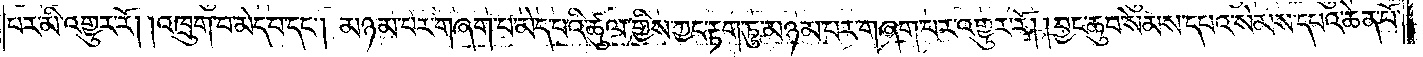པར་མི་འགྱུར་རོ། །འཁྲུག་བ་མེད་པ་དང༌། མཉམ་པར་བཞག་པ་མེད་པའི་ཚུལ་གྱིས་ཀྱང་རྟག་ཏུ་མཉམ་པར་གཞག་པར་འགྱུར་རོ། །བྱང་ཆུབ་སེམས་དཔའ་སེམས་དཔའ་ཆེན་པོ་
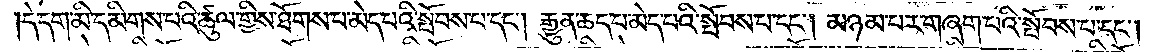དེ་དག་མི་དམིགས་པའི་ཚུལ་གྱིས་ཐོགས་པ་མེད་པའི་སྤོབས་པ་དང༌། རྒྱུན་ཆད་པ་མེད་པའི་སྤོབས་པ་དང༌། མཉམ་པར་གཞག་པའི་སྤོབས་པ་དང༌།
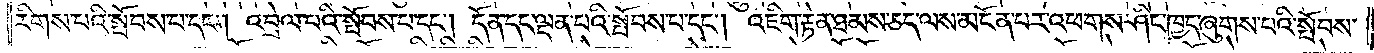རིགས་པའི་སྤོབས་པ་དང༌། འབྲེལ་པའི་སྤོབས་པ་དང༌། དོན་དང་ལྡན་པའི་སྤོབས་པ་དང༌། འཇིག་རྟེན་ཐམས་ཅད་ལས་མངོན་པར་འཕགས་ཤིང་ཁྱད་ཞུགས་པའི་སྤོབས་
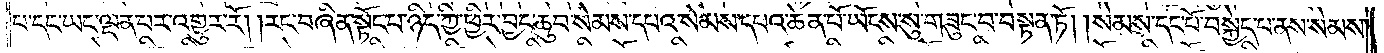པ་དང་ཡང་ལྡན་པར་འགྱུར་རོ། །རང་བཞིན་སྟོང་པ་ཉིད་ཀྱི་ཕྱིར་བྱང་ཆུབ་སེམས་དཔའ་སེམས་དཔའ་ཆེན་པོ་ཡོངས་སུ་བཟུང་བ་བསྟན་ཏོ། །སེམས་དང་པོ་བསྐྱེད་བ་ནས་སེམས་
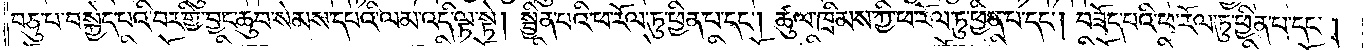བཅུ་པ་བསྐྱེད་པའི་བར་བྱང་ཆུབ་སེམས་དཔའི་ལམ་འདི་ལྟ་སྟེ། སྦྱིན་པའི་ཕ་རོལ་ཏུ་ཕྱིན་པ་དང༌། ཚུལ་ཁྲིམས་ཀྱི་ཕ་རོལ་ཏུ་ཕྱིན་པ་དང༌། བཟོད་པའི་ཕ་རོལ་ཏུ་ཕྱིན་པ་དང༌།
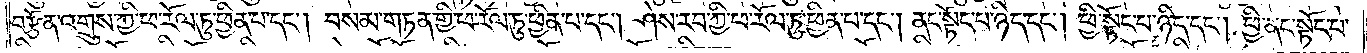བརྩོན་འགྲུས་ཀྱི་ཕ་རོལ་ཏུ་ཕྱིན་པ་དང༌། བསམ་གཏན་གྱི་ཕ་རོལ་ཏུ་ཕྱིན་པ་དང༌། ཤེས་རབ་ཀྱི་ཕ་རོལ་ཏུ་ཕྱིན་པ་དང༌། ནང་སྟོང་པ་ཉིད་དང༌། ཕྱི་སྟོང་པ་ཉིད་དང༌། ཕྱི་ནང་སྟོང་པ་
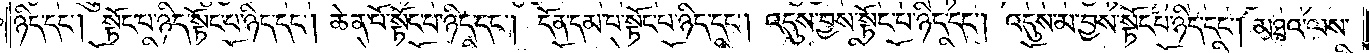ཉིད་དང༌། སྟོང་པ་ཉིད་སྟོང་པ་ཉིད་དང༌། ཆེན་པོ་སྟོང་པ་ཉིད་དང༌། དོན་དམ་པ་སྟོང་པ་ཉིད་དང༌། འདུས་བྱས་སྟོང་པ་ཉིད་དང༌། འདུས་མ་བྱས་སྟོང་པ་ཉིད་དང༌། མཐའ་ལས་
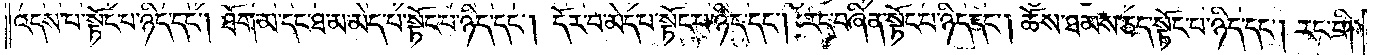འདས་པ་སྟོང་པ་ཉིད་དང༌། ཐོག་མ་དང་ཐ་མ་མེད་པ་སྟོང་པ་ཉིད་དང༌། དོར་བ་མེད་པ་སྟོང་པ་ཉིད་དང༌། རང་བཞིན་སྟོང་པ་ཉིད་དང༌། ཆོས་ཐམས་ཅད་སྟོང་པ་ཉིད་དང༌། རང་གི་
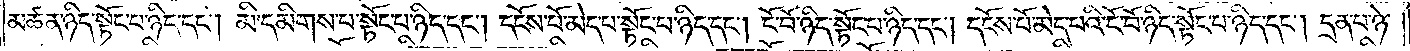མཚན་ཉིད་སྟོང་པ་ཉིད་དང༌། མི་དམིགས་པ་སྟོང་པ་ཉིད་དང༌། དངོས་པོ་མེད་པ་སྟོང་པ་ཉིད་དང༌། ངོ་བོ་ཉིད་སྟོང་པ་ཉིད་དང༌། དངོས་པོ་མེད་པའི་ངོ་བོ་ཉིད་སྟོང་པ་ཉིད་དང༌། དྲན་པ་ཉེ་
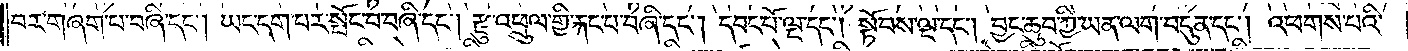བར་གཞག་པ་བཞི་དང༌། ཡང་དག་པར་སྤོང་བ་བཞི་དང༌། རྫུ་འཕྲུལ་གྱི་རྐང་པ་བཞི་དང༌། དབང་པོ་ལྔ་དང༌། སྟོབས་ལྔ་དང༌། བྱང་ཆུབ་ཀྱི་ཡན་ལག་བདུན་དང༌། འཕགས་པའི་
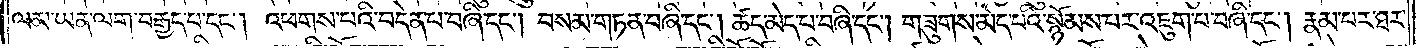ལམ་ཡན་ལག་བརྒྱད་པ་དང༌། འཕགས་པའི་བདེན་པ་བཞི་དང༌། བསམ་གཏན་བཞི་དང༌། ཚད་མེད་པ་བཞི་དང༌། གཟུགས་མེད་པའི་སྙོམས་པར་འཇུག་པ་བཞི་དང༌། རྣམ་པར་ཐར་
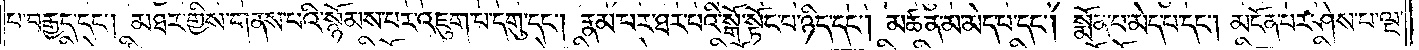པ་བརྒྱད་དང༌། མཐར་གྱིས་གནས་པའི་སྙོམས་པར་འཇུག་པ་དགུ་དང༌། རྣམ་པར་ཐར་པའི་སྒོ་སྟོང་པ་ཉིད་དང༌། མཚན་མ་མེད་པ་དང༌། སྨོན་པ་མེད་པ་དང༌། མངོན་པར་ཤེས་པ་ལྔ་
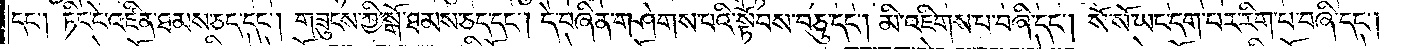དང༌། ཏིང་ངེ་འཛིན་ཐམས་ཅད་དང༌། གཟུངས་ཀྱི་སྒོ་ཐམས་ཅད་དང༌། དེ་བཞིན་གཤེགས་པའི་སྟོབས་བཅུ་དང༌། མི་འཇིགས་བ་བཞི་དང༌། སོ་སོ་ཡང་དག་པར་རིག་པ་བཞི་དང༌།
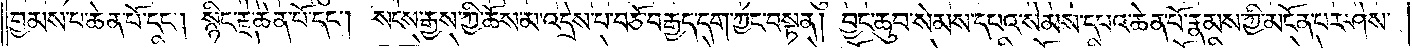བྱམས་པ་ཆེན་པོ་དང༌། སྙིང་རྗེ་ཆེན་པོ་དང༌། སངས་རྒྱས་ཀྱི་ཆོས་མ་འདྲས་པ་བཅོ་བརྒྱད་དག་ཀྱང་བསྟན། བྱང་ཆུབ་སེམས་དཔའ་སེམས་དཔའ་ཆེན་པོ་རྣམས་ཀྱི་མངོན་པར་ཤེས་
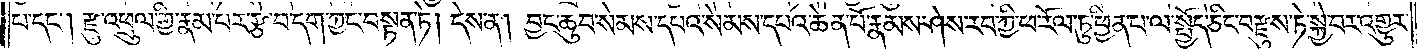པ་དང༌། རྫུ་འཕྲུལ་གྱིས་རྣམ་པར་རྩེ་བ་དག་ཀྱང་བསྟན་ཏེ། དེས་ན། བྱང་ཆུབ་སེམས་དཔའ་སེམས་དཔའ་ཆེན་པོ་རྣམས་ཤེས་རབ་ཀྱི་ཕ་རོལ་ཏུ་ཕྱིན་པ་ལ་སྤྱོད་ཅིང་བརྫུས་ཏེ་སྐྱེ་བར་འགྱུར་
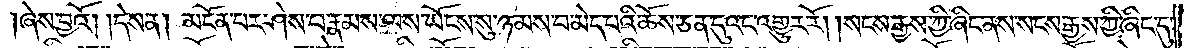ཞེས་བྱའོ། །དེས་ན། མངོན་པར་ཤེས་པ་རྣམས་ལས་ཡོངས་སུ་ཉམས་པ་མེད་པའི་ཆོས་ཅན་དུའང་འགྱུར་རོ། །སངས་རྒྱས་ཀྱི་ཞིང་ནས་སངས་རྒྱས་ཀྱི་ཞིང་དུ་
